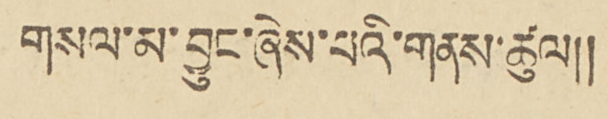གསལ་མ་བྱུང་ཞེས་པའི་གནས་ཚུལ།།
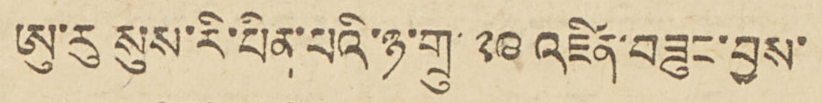ཨུ་རུ སུས་རི་པིན་པའི་ཉ་གྲུ་ ༢༩ འཛིན་བཟུང་བྱས་
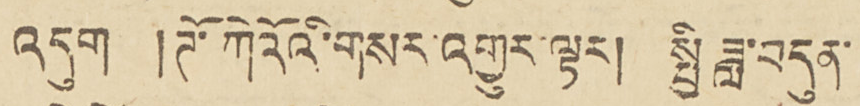འདུག །ཊོ་ཀེའོའི་གསར་འགྱུར་ལྟར། སྤྱི ཟླ་བདུན་
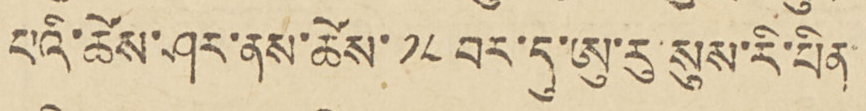པའི་ཚེས་ཤར་ནས་ཚེས་ ༡༨ བར་དུ་ཨུ་རུ་སུས་རི་པིན་
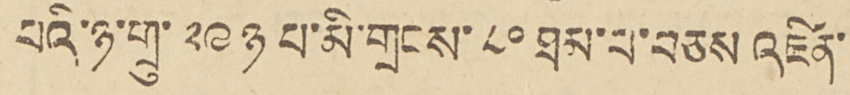པའི་ཉ་གྲུ་ ༢༩ ཉ པ་མི་གྲངས་ ༨༠ ཐམ་པ་བཅས་འཛིན་
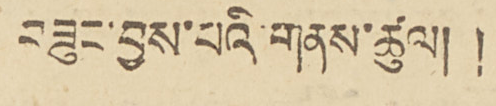བཟུང་བྱས་པའི་གནས་ཚུལ།།
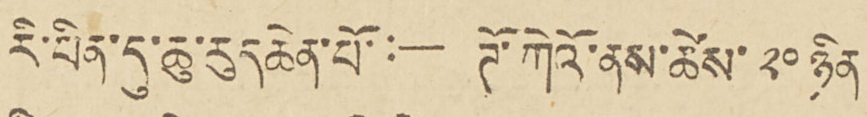རི་པིན་དུ་ཆུ་རུད ཆེན་པོ་:— ཌོ་ཀེའོ་ནས་ཚེས་ ༢༠ ཉིན
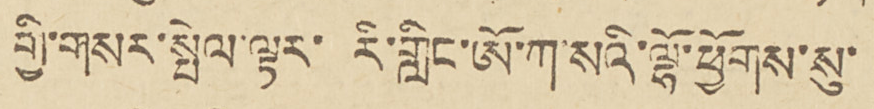གྱི་གསར་སྤེལ་ལྟར་རི་གླིང་ཨོ་ཀ་སའི་ལྷོ་ཕྱོགས་སུ་
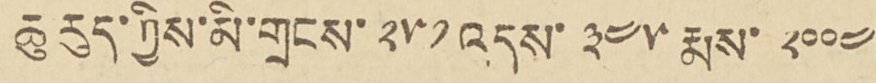ཆུ རུད་ཀྱིས་མི་གྲངས་ ༢༨༡ འདས་ ༣༤༥ རྨས་ ༢༠༠༤
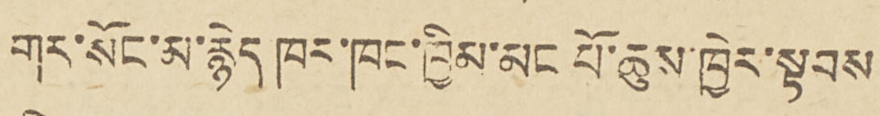གར་སོང་མ་རྙེད་ཁར་ཁང་ཁྱིམ་མང པོ་ཆུས་ཁྱེར་སྟབས
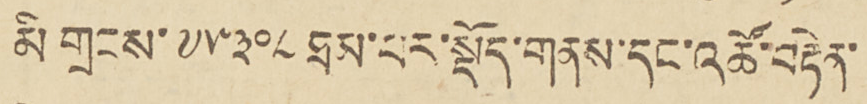མི གྲངས་༧༥༣༠༨ ཐམ་པར་སྡོད་གནས་དང་འཚོ་བརྟེན་
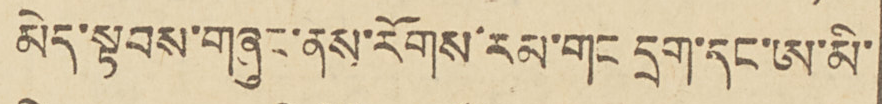མེད་སྟབས་གཞུང་ནས་རོགས་རམ་གང དྲག་དང་ཨ་མི་
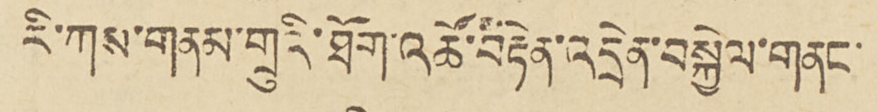རི་ཀས་གནམ་གྲུའི་ཐོག་འཚོ་བརྟེན་འདྲེན་བསྐྱེལ་གནང་
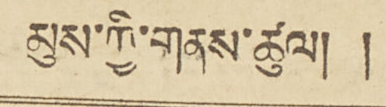མུས་ཀྱི་གནས་ཚུལ།།
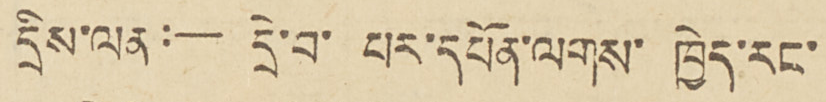དྲིས་ལན:— དྲི་བ་པར་དཔོན་ལགས་ཁྱེད་རང་
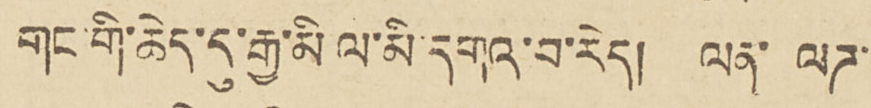གང་གི་ཆེད་དུ་རྒྱ་མི ལ་མི་དགའ་བ་རེད། ལན་ལཌ་
